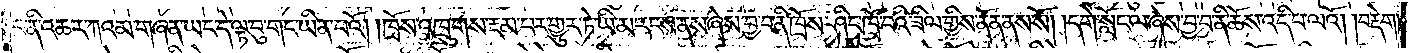བ་ནི་འཆར་ཀའམ་གཞན་ཡང་དེ་ལྟ་བུ་གང་ཡིན་པའོ། །ཁྲོས་འཁྲུགས་རྔམ་པར་གྱུར་ཏེ་ཡི་མ་རངས་ནས་ཞེས་བྱ་བ་ནི་ཁྲོས་ཤིང་ཁྲོ་བའི་ཟིལ་གྱིས་ནོན་ནས་སོ། །དགེ་སློང་ལ་ཞེས་བྱ་བ་ནི་ཆོས་འདི་པ་ལའོ། །བརྡེག་
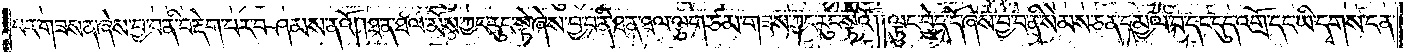པར་གཟས་ན་ཞེས་བྱ་བ་ནི་བརྡེག་པར་བཤམས་ནའོ། །ཐ་ན་ཐལ་མོས་ཀྱང་རུང་སྟེ་ཞེས་བྱ་བ་ནི་ཐ་ན་ཐལ་ལྕག་ཙམ་གཟས་ཀྱང་རུང་སྟེའོ། །ལྟུང་བྱེད་དོ་ཞེས་བྱ་བ་ནི་སེམས་ཅན་དམྱལ་བ་དང་དུད་འགྲོ་དང་ཡི་དྭགས་ངན་
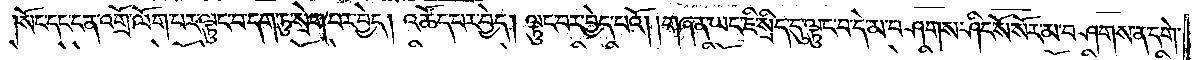སོང་དང་ངན་འགྲོ་ལོག་པར་ལྟུང་བ་དག་ཏུ་སྲེག་པར་བྱེད། འཚོད་པར་བྱེད། ལྟུང་བར་བྱེད་པའོ། །གཞན་ཡང་ཇི་སྲིད་དུ་ལྟུང་བ་དེ་མ་བཤགས་ཤིང་སོ་སོར་མ་བཤགས་ན་དགེ་
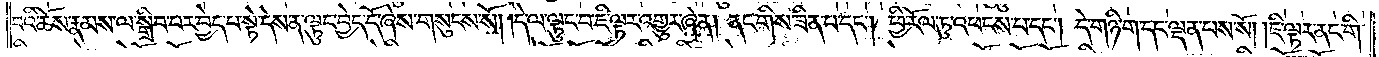བའི་ཆོས་རྣམས་ལ་སྒྲིབ་པར་བྱེད་པ་སྟེ་དེས་ན་ལྟུང་བྱེད་དོ་ཞེས་གསུངས་སོ། །དེ་ལ་ལྟུང་བ་ཇི་ལྟར་འགྱུར་ཞེ་ན། ནང་གིས་ཟིན་པ་དང༌། ཕྱི་རོལ་ཏུ་འཕངས་པ་དང༌། དེ་གཉི་ག་དང་ལྡན་པས་སོ། །ཇི་ལྟར་ནང་གི་
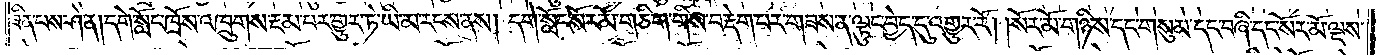ཟིན་པས་ཤེ་ན། དགེ་སློང་ཁྲོས་འཁྲུགས་རྔམ་པར་གྱུར་ཏེ་ཡི་མ་རངས་ནས། དགེ་སློང་སོར་མོ་གཅིག་གིས་བརྡེག་པར་གཟས་ན་ལྟུང་བྱེད་དུ་འགྱུར་རོ། །སོར་མོ་གཉིས་དང་གསུམ་དང་བཞི་དང་སོར་མོ་ལྔས་
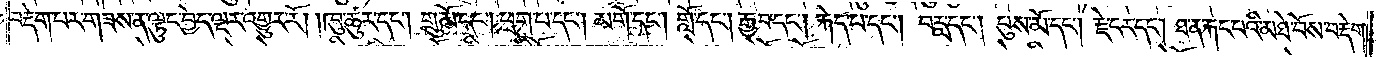བརྡེག་པར་གཟས་ན་ལྟུང་བྱེད་ལྔར་འགྱུར་རོ། །ཁུ་ཚུར་དང༌། གྲུ་མོ་དང༌། ཕྲག་པ་དང༌། མགོ་དང༌། གློ་དང༌། རྒྱབ་དང༌། རྐེད་པ་དང༌། བརླ་དང༌། པུས་མོ་དང༌། རྗེ་ངར་དང༌། ཐ་ན་རྐང་པའི་མཐེ་བོས་བརྡེག་
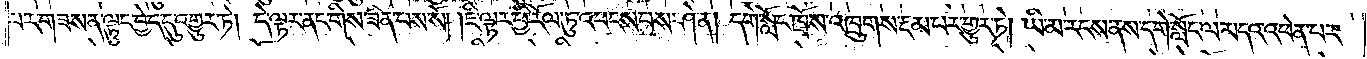པར་གཟས་ན་ལྟུང་བྱེད་དུ་འགྱུར་ཏེ། དེ་ལྟར་ནང་གིས་ཟིན་པས་སོ། །ཇི་ལྟར་ཕྱི་རོལ་ཏུ་འཕངས་པས་ཤེ་ན། དགེ་སློང་ཁྲོས་འཁྲུགས་རྔམ་པར་གྱུར་ཏེ། ཡི་མ་རངས་ནས་དགེ་སློང་ལ་མདའ་འཕེན་པར་
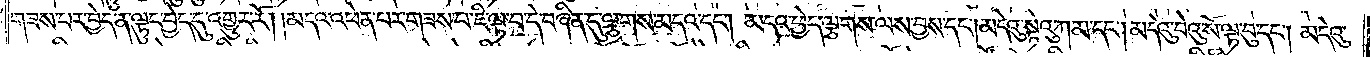གཟས་པར་བྱེད་ན་ལྟུང་བྱེད་དུ་འགྱུར་རོ། །མདའ་འཕེན་པར་གཟས་པ་ཇི་ལྟ་བ་དེ་བཞིན་དུ་ལྕགས་མདའ་དང༌། མདའ་ཕྱེད་ལྕགས་ལས་བྱས་དང༌། མདེའུ་སྟེའུ་ཀ་མ་དང༌། མདེའུ་བེའུ་སོ་ལྟ་བུ་དང༌། མདེའུ་
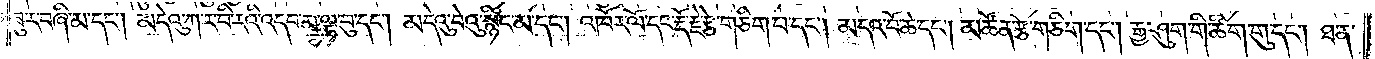ཟུར་བཞི་མ་དང༌། མདེའུ་ཀ་ར་བི་རའི་འདབ་མ་ལྟ་བུ་དང༌། མདེའུ་བེའུ་སྙིང་མ་དང༌། འཁོར་ལོ་དང་རྡོ་རྗེ་རྩེ་གཅིག་པ་དང༌། མདའ་བོ་ཆེ་དང༌། མཚོན་རྩ་གཅིག་དང༌། རྒྱ་ཤུག་གི་ཚིག་གུ་དང༌། ཐ་ན་
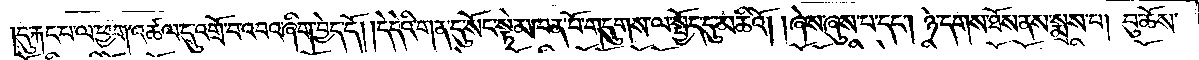དུ་རྐང་པ་ལ་ཕྱག་འཚལ་དུ་འགྲོ་བ་འབའ་ཞིག་བྱེད་དོ། །དེ་དེའི་གན་དུ་སོང་སྟེ་མཁན་པོ་གདུགས་ལ་སྤྱོད་དུ་མཆིའོ། །ཞེས་ཞུས་པ་དང༌། ཉེ་དགས་ཐོས་ནས་སྨྲས་པ། བུ་ཆོས་
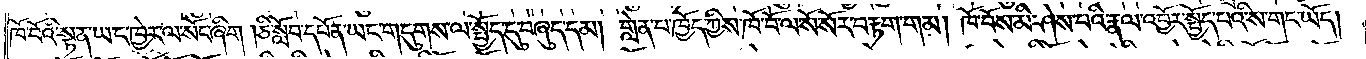ཁོ་བོའི་སྟན་ཡང་ཁྱེར་ལ་སོང་ཞིག །ཅི་སློབ་དཔོན་ཡང་གདུགས་ལ་སྤྱོད་དུ་བཞུད་དམ། གླེན་པ་ཁྱོད་ཀྱིས་ཁོ་བོ་ལ་སོ་སོར་བརྟག་གམ། ཁོ་བོས་མི་ཤེས་པའི་རྣལ་འབྱོར་སྤྱོད་པའི་ས་གང་ཡོད།
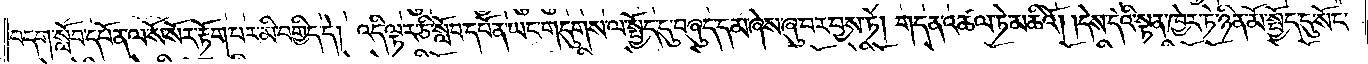བདག་སློབ་དཔོན་ལ་སོ་སོར་རྟོག་པར་མི་བགྱིད་དེ། འདི་ལྟར་ཅི་སློབ་དཔོན་ཡང་གདུགས་ལ་སྤྱོད་དུ་བཞུད་དམ་ཞེས་ཞུ་བར་བྱས་ཏེ། གདན་འཚལ་ཏེ་མཆིའོ། །དེས་དེའི་སྟན་ཁྱེར་ཏེ་ཉིན་མོ་སྤྱོད་དུ་སོང་
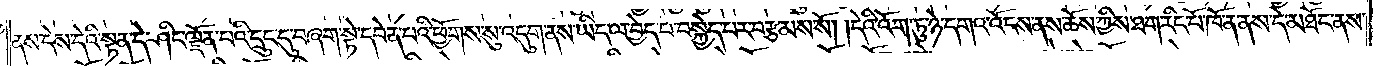ནས་དེས་དེའི་སྟན་དེ་ཤིང་ལྗོན་པའི་དྲུང་དུ་བཞག་སྟེ་དབེན་པའི་ཕྱོགས་སུ་འདུག་ནས་ཡིད་ལ་བྱེད་པ་བསྐྱེད་པར་བརྩམས་སོ། །དེའི་འོག་ཏུ་ཉེ་དགའ་འོངས་ནས་ཆོས་ཀྱིས་ཐག་རིང་པོ་ཁོ་ན་ནས་དེ་མཐོང་ནས་
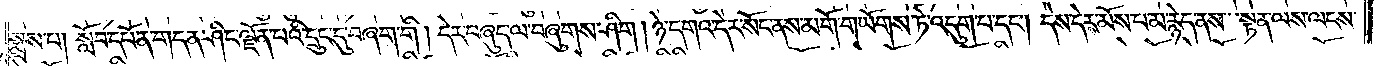སྨྲས་པ། སློབ་དཔོན་གདན་ཤིང་ལྗོན་པའི་དྲུང་དུ་བཞག་གི ། དེར་བཞུད་ལ་བཞུགས་ཤིག །ཉེ་དགའ་དེར་སོང་ནས་མགོ་གཡོགས་ཏེ་འདུག་པ་དང༌། དེས་དེར་མོས་པ་མ་རྙེད་ནས་སྟན་ལས་ལངས་
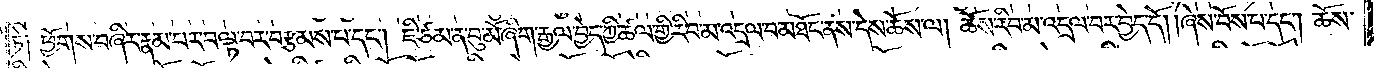ཏེ༑ ཕྱོགས་བཞིར་རྣམ་པར་བལྟ་བར་བརྩམས་པ་དང༌། ཇི་ཙམ་ན་བུ་མོ་ཞིག་རྒྱལ་བྱེད་ཀྱི་ཚལ་གྱི་རིབ་མ་འདྲལ་བ་མཐོང་ནས་དེས་ཆོས་ལ། ཆོས་རིབ་མ་འདྲལ་བར་བྱེད་དོ། །ཞེས་བོས་པ་དང༌། ཆོས་
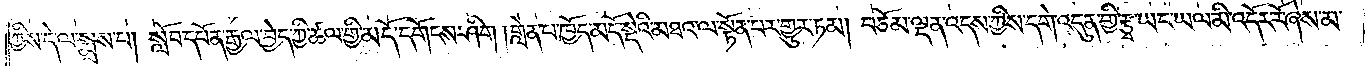ཀྱིས་དེ་ལ་སྨྲས་པ། སློབ་དཔོན་རྒྱལ་བྱེད་ཀྱི་ཚལ་གྱི་མདོ་དགོངས་ཤིག །གླེན་པ་ཁྱོད་མདོ་སྡེའི་མཐའ་ལ་སྟོན་པར་གྱུར་ཏམ། བཅོམ་ལྡན་འདས་ཀྱིས་དགེ་འདུན་གྱི་རྩྭ་ཡང་ཡལ་མི་འདོར་རོ་ཞེས་མ་
